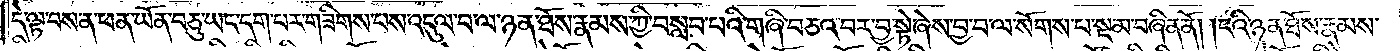དེ་ལྟ་བས་ན་ཕན་ཡོན་བཅུ་ཡང་དག་པར་གཟིགས་པས་འདུལ་བ་ལ་ཉན་ཐོས་རྣམས་ཀྱི་བསླབ་པའི་གཞི་བཅའ་བར་བྱ་སྟེ་ཞེས་བྱ་བ་ལ་སོགས་པ་སྔ་མ་བཞིན་ནོ། །ངའི་ཉན་ཐོས་རྣམས་
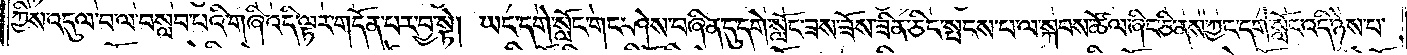ཀྱིས་འདུལ་བ་ལ་བསླབ་པའི་གཞི་འདི་ལྟར་གདོན་པར་བྱ་སྟེ། ཡང་དགེ་སློང་གང་ཤེས་བཞིན་དུ་དགེ་སློང་ཟས་ཟོས་ཟིན་ཅིང་སྤངས་པ་ལ་སྐབས་ཚོལ་ཞིང་ཅི་ནས་ཀྱང་དགེ་སློང་འདི་ཉེས་པ་
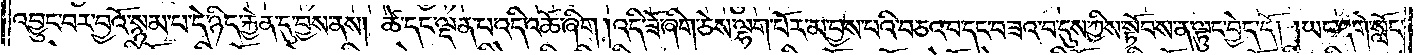འབྱུང་བར་བྱའོ་སྙམ་པ་དེ་ཉིད་རྐྱེན་དུ་བྱས་ནས། ཚེ་དང་ལྡན་པ་འདི་འཆོ་ཞིག །འདི་ཟོ་ཞིག་ཅེས་ལྷག་པོར་མ་བྱས་པའི་བཅའ་བ་དང་བཟའ་བ་དུས་ཀྱིས་སྟོབས་ན་ལྟུང་བྱེད་དོ། །ཡང་དགེ་སློང་
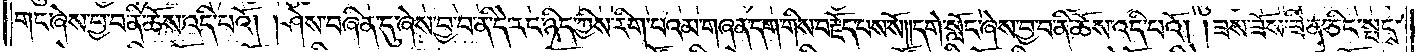གང་ཞེས་བྱ་བ་ནི་ཆོས་འདི་པའོ། །ཤེས་བཞིན་དུ་ཞེས་བྱ་བ་ནི་དེ་རང་ཉིད་ཀྱིས་རིག་པའམ་གཞན་དག་གིས་བརྗོད་པས་སོ། །དགེ་སློང་ཞེས་བྱ་བ་ནི་ཆོས་འདི་པའོ། །ཟས་ཟོས་ཟིན་ཅིང་སྤངས་
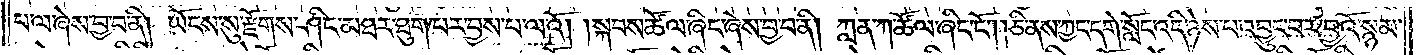པ་ལ་ཞེས་བྱ་བ་ནི། ཡོངས་སུ་རྫོགས་ཤིང་མཐར་ཐུག་པར་བྱས་པ་ལའོ། །སྐབས་ཚོལ་ཞིང་ཞེས་བྱ་བ་ནི། ཀླན་ཀ་ཚོལ་ཞིང་ངོ༌། །ཅི་ནས་ཀྱང་དགེ་སློང་འདི་ཉེས་པ་འབྱུང་བར་བྱའོ་སྙམ་
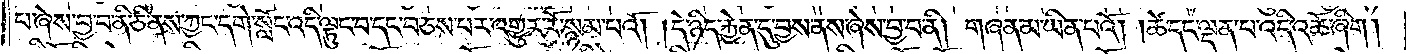པ་ཞེས་བྱ་བ་ནི་ཅི་ནས་ཀྱང་དགེ་སློང་འདི་ལྟུང་བ་དང་བཅས་པར་འགྱུར་རོ་སྙམ་པའོ། །དེ་ཉིད་རྐྱེན་དུ་བྱས་ནས་ཞེས་བྱ་བ་ནི། གཞན་མ་ཡིན་པའོ། །ཚེ་དང་ལྡན་པ་འདི་འཆོ་ཞིག །
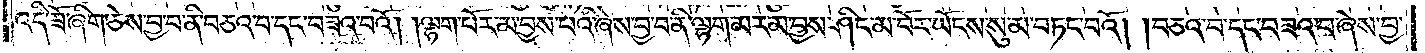འདི་ཟོ་ཞིག་ཅེས་བྱ་བ་ནི་བཅའ་བ་དང་བཟའ་བའོ། །ལྷག་པོར་མ་བྱས་པའི་ཞེས་བྱ་བ་ནི་ལྷག་མར་མ་བྱས་ཤིང་མ་བོར་ཡོངས་སུ་མ་བཏང་བའོ། །བཅའ་བ་དང་བཟའ་བ་ཞེས་བྱ་
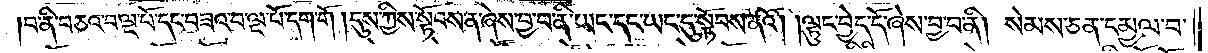བ་ནི་བཅའ་བ་ལྔ་པོ་དང་བཟའ་བ་ལྔ་མོ་དག་གོ །དུས་ཀྱིས་སྟོབས་ན་ཞེས་བྱ་བ་ནི་ཡང་དང་ཡང་དུ་སྟོབས་ནའོ། །ལྟུང་བྱེད་དོ་ཞེས་བྱ་བ་ནི། སེམས་ཅན་དམྱལ་བ་
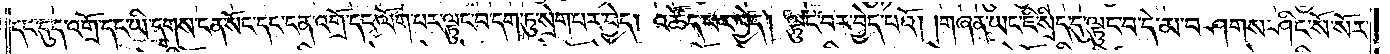དང་དུད་འགྲོ་དང་ཡི་དྭགས་ངན་སོང་དང་ངན་འགྲོ་དང་ལོག་པར་ལྟུང་བ་དག་ཏུ་སྲེག་པར་བྱེད། འཚོད་པར་བྱེད། ལྟུང་བར་བྱེད་པའོ། །གཞན་ཡང་ཇི་སྲིད་དུ་ལྟུང་བ་དེ་མ་བཤགས་ཤིང་སོ་སོར་
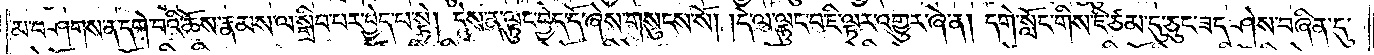མ་བཤགས་ན་དགེ་བའི་ཆོས་རྣམས་ལ་སྒྲིབ་པར་བྱེད་པ་སྟེ། དེས་ན་ལྟུང་བྱེད་དོ་ཞེས་གསུངས་སོ། །དེ་ལ་ལྟུང་བ་ཇི་ལྟར་འགྱུར་ཞེ་ན། དགེ་སློང་གིས་ཇི་ཙམ་དུ་ཅུང་ཟད་ཤེས་བཞིན་དུ་
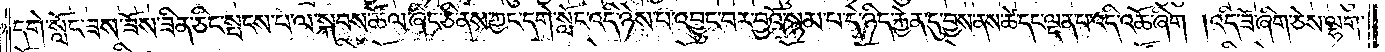དགེ་སློང་ཟས་ཟོས་ཟིན་ཅིང་སྤངས་པ་ལ་སྐབས་ཚོལ་ཞིང་ཅི་ནས་ཀྱང་དགེ་སློང་འདི་ཉེས་པ་འབྱུང་བར་བྱའོ་སྙམ་པ་དེ་ཉིད་རྐྱེན་དུ་བྱས་ནས་ཚེ་དང་ལྡན་པ་འདི་འཆོ་ཞིག །འདི་ཟོ་ཞིག་ཅེས་ལྷག་
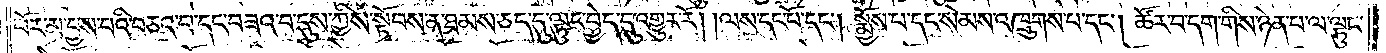པོར་མ་བྱས་པའི་བཅའ་བ་དང་བཟའ་བ་དུས་ཀྱིས་སྟོབས་ན་ཐམས་ཅད་དུ་ལྟུང་བྱེད་དུ་འགྱུར་རོ། །ལས་དང་པོ་དང༌། སྨྱོས་པ་དང་སེམས་འཁྲུགས་པ་དང༌། ཚོར་བ་དག་གིས་ཉེན་པ་ལ་ལྟུང་
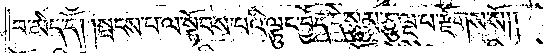བ་མེད་དོ། །སྤངས་པ་ལ་སྟོབས་པའི་ལྟུང་བྱེད་དེ་སུམ་ཅུ་ལྔ་པ་རྫོགས་སོ༎
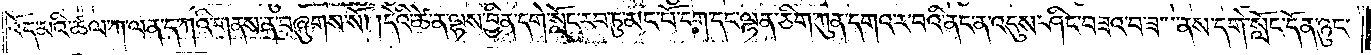འོད་མའི་ཚལ་ཀ་ལན་ད་ཀའི་གནས་ན་བཞུགས་སོ། །དེའི་ཚེ་ན་ལྷས་བྱིན་དགེ་སློང་རབ་ཏུ་མང་པོ་དག་དང་ལྷན་ཅིག་ཀུན་དགའ་ར་བའི་ནང་ན་འདུས་ཤིང་བཟའ་བ་ཟ་ནས་དགེ་སློང་དོན་ཉུང་
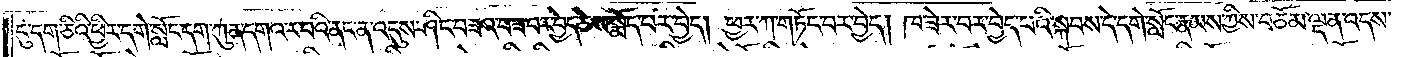ངུ་དག་ཅིའི་ཕྱིར་དགེ་སློང་དག་ཀུན་དགའ་ར་བའི་ནང་ན་འདུས་ཤིང་བཟའ་བ་ཟ་བར་བྱེད་ཅེས་སྨོད་པར་བྱེད། ཕྱར་ཀ་གཏོང་བར་བྱེད། ཁ་ཟེར་བར་བྱེད་པའི་སྐབས་དེ་དགེ་སློང་རྣམས་ཀྱིས་བཅོམ་ལྡན་འདས་
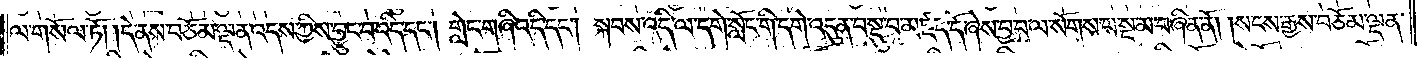ལ་གསོལ་ཏོ། །དེ་ནས་བཅོམ་ལྡན་འདས་ཀྱིས་བྱུང་བ་འདི་དང༌། གླེང་གཞི་འདི་དང༌། སྐབས་འདི་ལ་དགེ་སློང་གི་དགེ་འདུན་བསྡུ་བ་མཛད་དོ་ཞེས་བྱ་བ་ལ་སོགས་པ་སྔ་མ་བཞིན་ནོ། །སངས་རྒྱས་བཅོམ་ལྡན་
